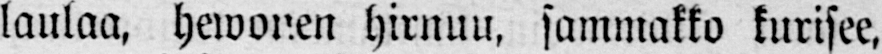laulaa, hewonen hirnuu, sammakko kurisee,
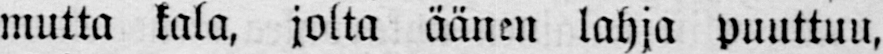mutta kala, jolta äänen lahja puuttuu,
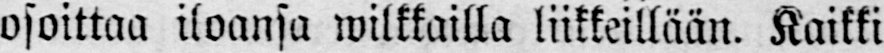osoittaa iloansa wilkkailla liikkeillään. Kaikki
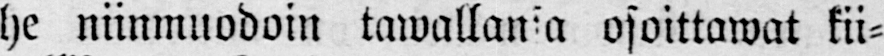he niinmuodoin tawallansa osoittawat kii-
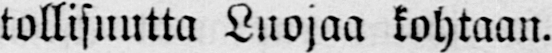tollisuutta Luojaa kohtaan.
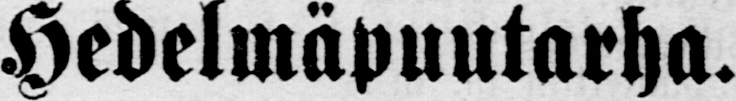Hedelmäpuutarha.
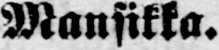Mansikka.
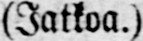(Jatkoa.)
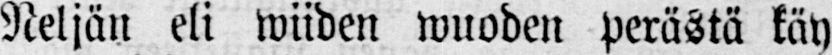Neljän eli wiiden wuoden perästä käy
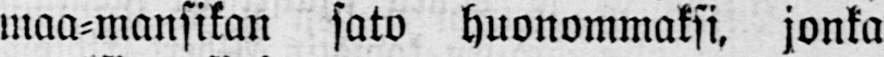maa-mansikan sato huonommaksi, jonka
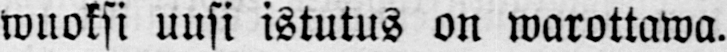wuoksi uusi istutus on warottawa.
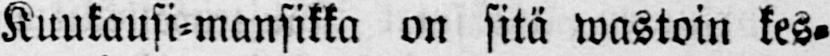Kuukausi-mansikka on sitä wastoin kes-
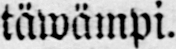täwämpi.
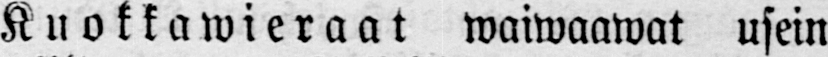Kuokkawieraat waiwaawat usein
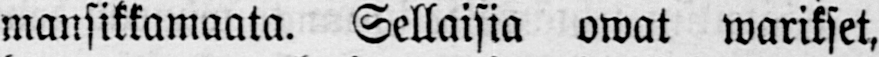mansikkamaata. Sellaisia owat warikset,
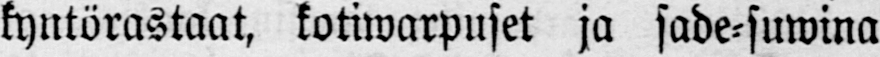kyntörastaat, kotiwarpuset ja sade-suwina
